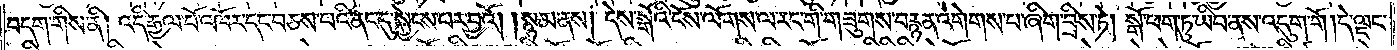བདག་གིས་ནི། འདི་རྒྱལ་པོ་འཁོར་དང་བཅས་པའི་ནང་དུ་སྐྱེངས་པར་བྱའོ། །སྙམ་ནས། དེས་སྒོའི་ངོས་ལོགས་ལ་རང་གི་གཟུགས་བརྙན་འགེགས་པ་ཞིག་བྲིས་ཏེ། སྒོ་ཕག་ཏུ་ཡིབ་ནས་འདུག་གོ །དེ་ལྡང་
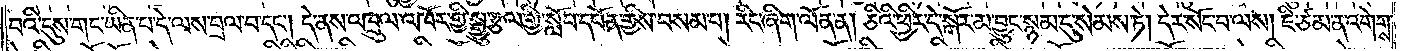བའི་དུས་གང་ཡིན་པ་དེ་ལས་བྲལ་བ་དང༌། དེ་ནས་འཁྲུལ་འཁོར་གྱི་སྒྱུ་རྩལ་གྱི་སློབ་དཔོན་གྱིས་བསམ་པ། རིང་ཞིག་ལོན་ན། ཅིའི་ཕྱིར་དེ་སྒོར་མ་བྱུང་སྙམ་དུ་སེམས་ཏེ། དེར་སོང་བ་ལས། ཇི་ཙམ་ན་འགེགས་
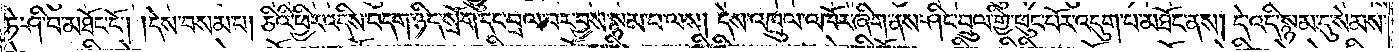ཏེ་ཤི་བ་མཐོང་ངོ༌། །དེས་བསམ་པ། ཅིའི་ཕྱིར་འདིས་བདག་ཉིད་སྲོག་དང་བྲལ་བར་བྱས་སྙམ་པ་ལས། དེས་འཁྲུལ་འཁོར་ཞིག་ནས་ཤིང་བྲུལ་གྱི་ཕུང་པོར་འདུག་པ་མཐོང་ནས། དེ་འདི་སྙམ་དུ་སེམས་
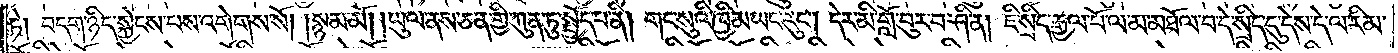ཏེ། བདག་ཉིད་སྐྱེངས་པས་འགེགས་སོ། །སྙམ་མོ། །ཡུལ་ནས་ཅན་གྱི་ཀུན་ཏུ་སྤྱོད་པ་ནི། གང་སུའི་ཁྱིམ་ཡང་རུང༌། དེར་མི་གློ་བུར་བ་ཤི་ན། ཇི་སྲིད་རྒྱལ་པོ་ལ་མ་མཐོལ་བ་དེ་སྲིད་དུ་དེས་དེ་ལ་རིམ་
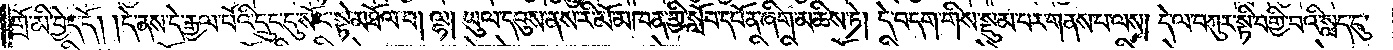གྲོ་མི་བྱེད་དོ། །དེ་ནས་དེ་རྒྱལ་པོའི་དྲུང་དུ་སོང་སྟེ་མཐོལ་བ། ལྷ། ཡུལ་དབུས་ནས་རི་མོ་མཁན་གྱི་སློབ་དཔོན་ཞིག་མཆིས་ཏེ། དེ་བདག་གིས་སྡུམ་པར་གནས་པ་ལས། དེ་ལ་བཀུར་སྟི་བགྱི་བའི་སླད་དུ་
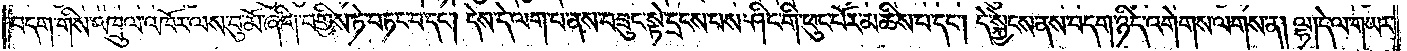བདག་གིས་འཁྲུལ་འཁོར་ལས་བུ་མོ་ཞིག་བགྱིས་ཏེ་བཏང་བ་དང༌། དེས་དེ་ལག་པ་ནས་བཟུང་སྟེ་དྲངས་པས་ཤིང་གི་ཕུང་པོར་མཆིས་པ་དང༌། དེ་སྐྱེངས་ནས་བདག་ཉིད་འགེགས་ལགས་ན། ལྷ། དེ་ལ་གཡར་
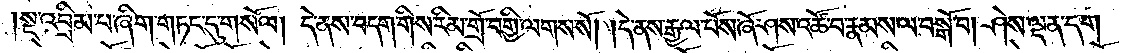།སྔ་འབྲིམ་པ་ཞིག་གཏང་དུ་གསོལ། དེ་ནས་བདག་གིས་རིམ་གྲོ་བགྱི་ལགས་སོ། །དེ་ནས་རྒྱལ་པོས་ཞོ་ཤས་འཚོ་བ་རྣམས་ལ་བསྒོ་བ། ཤེས་ལྡན་དག
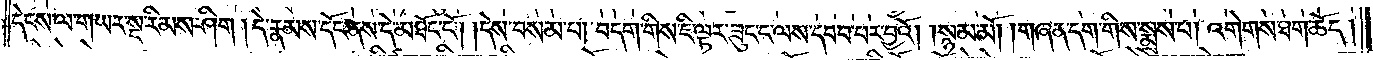དེངས་ལ་གཡར་སྔ་རིམས་ཤིག །དེ་རྣམས་དོང་ནས་དེ་མཐོང་ངོ༌། །དེས་བསམ་པ། བདག་གིས་ཇི་ལྟར་ཟུང་ང་ལས་དབབ་པར་བྱའོ། །སྙམ་མོ། །གཞན་དག་གིས་སྨྲས་པ། འགེགས་ཐག་ཆོད།
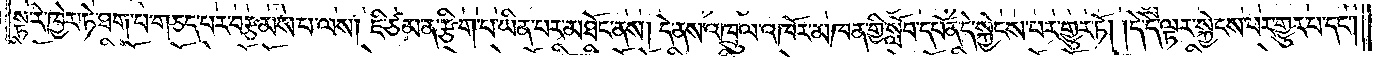སྟ་རེ་ཁྱེར་ཏེ་ཐག་པ་གཅད་པར་བརྩམས་པ་ལས། ཇི་ཙམ་ན་རྩིག་པ་ཡིན་པར་མཐོང་ནས། དེ་ནས་འཁྲུལ་འཁོར་མཁན་གྱི་སློབ་དཔོན་དེ་སྐྱེངས་པར་གྱུར་ཏོ། །དེ་དེ་ལྟར་སྐྱེངས་པར་གྱུར་པ་དང༌།
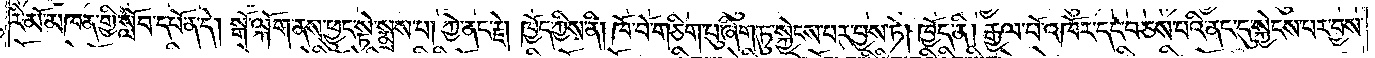རི་མོ་མཁན་གྱི་སློབ་དཔོན་དེ། སྒོ་ལྐོག་ནས་ཕྱུང་སྟེ་སྨྲས་པ། ཀྱེ་ནང་རྗེ། ཁྱོད་ཀྱིས་ནི། ཁོ་བོ་གཅིག་པུ་ཞིག་ཏུ་སྐྱེངས་པར་བྱས་ཏེ། ཁྱོད་ནི། རྒྱལ་པོ་འཁོར་དང་བཅས་པའི་ནང་དུ་སྐྱེངས་པར་བྱས་
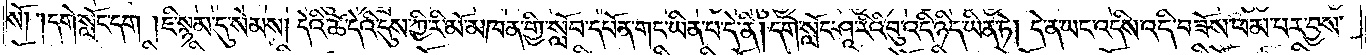སོ། །དགེ་སློང་དག །ཇི་སྙམ་དུ་སེམས། དེའི་ཚེ་དེའི་དུས་ཀྱི་རི་མོ་མཁན་གྱི་སློབ་དཔོན་གང་ཡིན་པ་དེ་ནི། དགེ་སློང་ཤཱ་རིའི་བུ་འདི་ཉིད་ཡིན་ཏེ། དེ་ན་ཡང་འདིས་འདི་བཟོས་ཕམ་པར་བྱས་
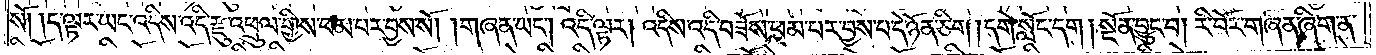སོ། །ད་ལྟར་ཡང་འདིས་འདི་རྫུ་འཕྲུལ་གྱིས་ཕམ་པར་བྱས་སོ། །གཞན་ཡང༌། འདི་ལྟར། འདིས་འདི་བཟོས་ཕམ་པར་བྱས་པ་དེ་ཉོན་ཅིག །དགེ་སློང་དག །སྔོན་བྱུང་བ། རི་བོར་གཞན་ཞིག་ན་
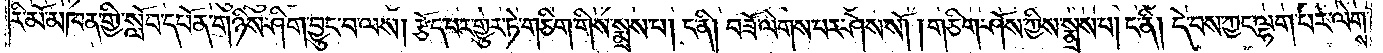རི་མོ་མཁན་གྱི་སློབ་དཔོན་གཉིས་ཤིག་བྱུང་བ་ལས། རྩོད་པར་གྱུར་ཏེ་གཅིག་གིས་སྨྲས་པ། ང་ནི། བཟོ་ལེགས་པར་ཤེས་སོ། །གཅིག་ཤོས་ཀྱིས་སྨྲས་པ། ང་ནི། དེ་བས་ཀྱང་ལྷག་པར་ལེགས་
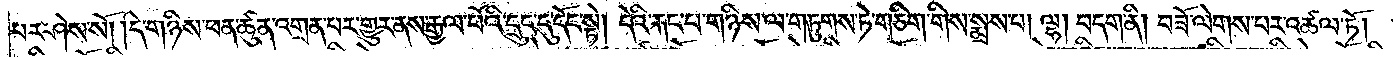པར་ཤེས་སོ། །དེ་གཉིས་ཕན་ཚུན་འགྲན་པར་གྱུར་ནས་རྒྱལ་པོའི་དྲུང་དུ་དོང་སྟེ། དེའི་རྐང་པ་གཉིས་ལ་གཏུགས་ཏེ་གཅིག་གིས་སྨྲས་པ། ལྷ། བདག་ནི། བཟོ་ལེགས་པར་འཚལ་ཏོ། །
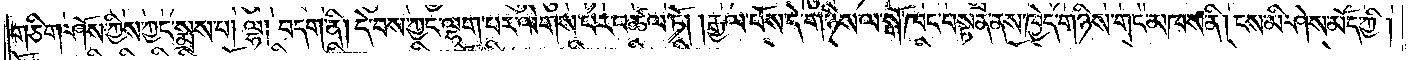གཅིག་ཤོས་ཀྱིས་ཀྱང་སྨྲས་པ། ལྷ། བདག་ནི། དེ་བས་ཀྱང་ལྷག་པར་ལེགས་པར་འཚལ་ཏོ། །རྒྱལ་པོས་དེ་གཉིས་ལ་སྒོ་ཁང་བསྟན་ནས་ཁྱེད་གཉིས་གང་མཁས་ནི། ངས་མི་ཤེས་མོད་ཀྱི།
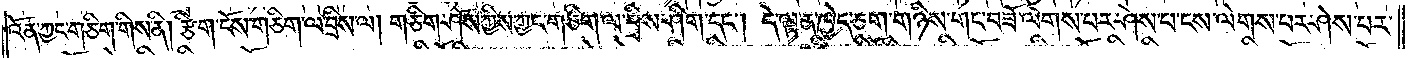འོན་ཀྱང་གཅིག་གིས་ནི། རྩིག་ངོས་གཅིག་ལ་བྲིས་ལ། གཅིག་ཤོས་ཀྱིས་ཀྱང་གཅིག་ལ་བྲིས་ཤིག་དང༌། དེ་ལྟ་ན་ཁྱེད་ཅག་གཉིས་གང་བཟོ་ལེགས་པར་ཤེས་པ་ངས་ལེགས་པར་ཤེས་པར་
